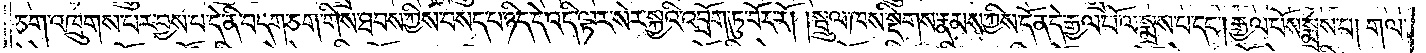ཅག་འཁྲུགས་པར་བྱས་པ་དེ་ནི་བདག་ཅག་གིས་ཐབས་ཀྱིས་བསད་པ་ཉིད་དེ་འདི་ལྟར་སེར་སྐྱའི་འབྲོག་ཏུ་བོར་རོ། །སྦྲུལ་ཁས་སྡིགས་རྣམས་ཀྱིས་དོན་དེ་རྒྱལ་པོ་ལ་སྨྲས་པ་དང༌། རྒྱལ་པོས་སྨྲས་པ། གལ་
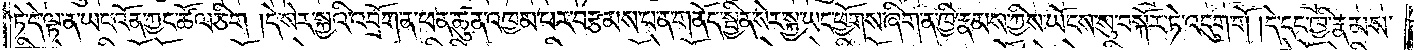ཏེ་དེ་ལྟ་ན་ཡང་འོན་ཀྱང་ཚོལ་ཅིག །དེ་སེར་སྐྱའི་འབྲོག་ན་ཕན་ཚུན་འཁྱམ་པར་བརྩམས་པ་ན་གནོད་སྦྱིན་སེར་སྐྱ་ཡང་ཕྱོགས་ཞིག་ན་ཁྱི་རྣམས་ཀྱིས་ཡོངས་སུ་བསྐོར་ཏེ་འདུག་གོ །དེ་དང་ཁྱི་རྣམས་
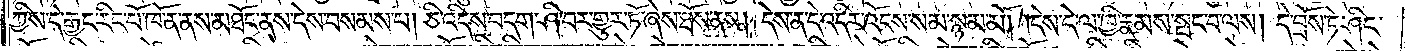ཀྱིས་དེ་རྒྱང་རིང་པོ་ཁོ་ན་ནས་མཐོང་ནས་དེས་བསམས་པ། ཅི་འདིས་བདག་ཤི་བར་གྱུར་ཏོ་ཞེས་ཐོས་ནས། དེས་ན་དེ་འདིར་འོངས་སམ་སྙམ་མོ། །དེས་དེ་ལ་ཁྱི་རྣམས་སྤང་བ་ལས། དེ་བྲོས་ཏེ་ཤིང་
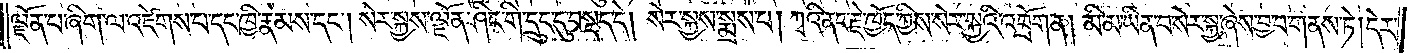ལྗོན་པ་ཞིག་ལ་འཛེགས་པ་དང་ཁྱི་རྣམས་དང༌། སེར་སྐྱས་ལྗོན་ཤིང་གི་དྲུང་དུ་བསྡད་དེ། སེར་སྐྱས་སྨྲས་པ། ཀྭའི་ནང་རྗེ་ཁྱོད་ཀྱིས་སེར་སྐྱའི་འབྲོག་ན། མི་མ་ཡིན་པ་སེར་སྐྱ་ཞེས་བྱ་བ་གནས་ཏེ། དེར་
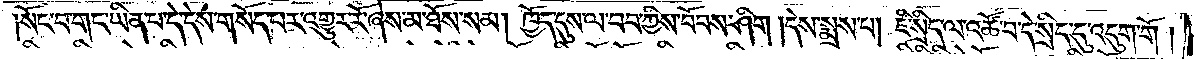སོང་བ་གང་ཡིན་པ་དེ་དེས་གསོད་པར་འགྱུར་རོ་ཞེས་མ་ཐོས་སམ། ཁྱོད་དུས་ལ་བབ་ཀྱིས་བོབས་ཤིག །དེས་སྨྲས་པ། ཇི་སྲིད་ལ་འཚོ་བ་དེ་སྲིད་དུ་འདུག་གོ །
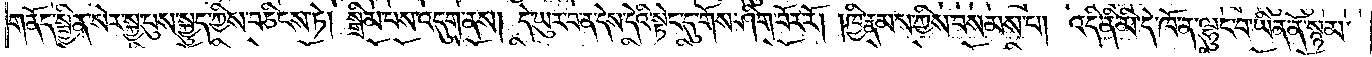གནོད་སྦྱིན་སེར་སྐྱ་པུས་སྐྱུད་ཀྱིས་བཅིངས་ཏེ། སྒྲིམ་པས་འདུག་ནས། དེ་ཡུར་བ་ན་དེས་དེའི་སྟེང་དུ་གོས་ཤིག་བོར་རོ། །ཁྱི་རྣམས་ཀྱིས་བསམས་པ། འདི་ནི་མི་དེ་ཁོ་ན་ལྷུང་བ་ཡིན་ནོ་སྙམ་
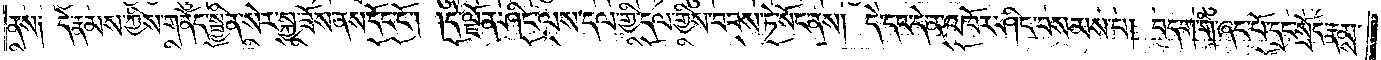ནས༑ དེ་རྣམས་ཀྱིས་གནོད་སྦྱིན་སེར་སྐྱ་ཟོས་ནས་དོང་ངོ༌། །དེ་ལྗོན་ཤིང་ལས་དལ་གྱིས་དལ་གྱིས་བབས་ཏེ་སོང་ནས། དེ་དང་དེ་ན་འཁོར་ཤིང་བསམས་པ། བདག་གི་ཞང་པོ་དྲང་སྲོང་རྣམས་
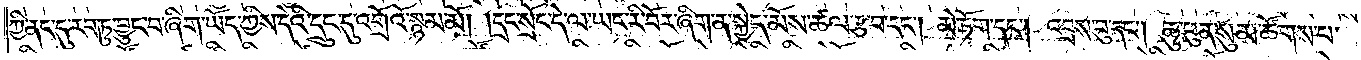ཀྱི་ནང་དུ་རབ་ཏུ་བྱུང་བ་ཞིག་ཡོད་ཀྱིས་དེའི་དྲུང་དུ་འགྲོའོ་སྙམ་མོ། །དྲང་སྲོང་དེ་ལ་ཡང་རི་བོར་ཞིག་ན་སྐྱེད་མོས་ཚལ་རྩ་བ་དང༌། མེ་ཏོག་དང༌། འབྲས་བུ་དང༌། ཆུ་ཕུན་སུམ་ཚོགས་པ་
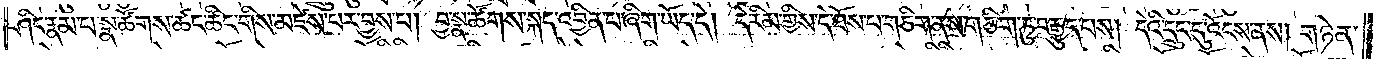ཤིང་རྣམ་པ་སྣ་ཚོགས་ཚང་ཚིང་གིས་མཛེས་པར་བྱས་པ། བྱ་སྣ་ཚོགས་སྐད་འབྱིན་པ་ཞིག་ཡོད་དེ། དེ་རིམ་གྱིས་དེ་ཐོས་པ་གཅིག་ནས་གཅིག་ཏུ་བརྒྱུད་པས། དེའི་དྲུང་དུ་འོངས་ནས། གཉེན་
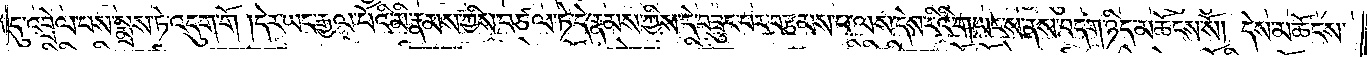དུ་འབྲེལ་པས་སྨྲས་ཏེ་འདུག་གོ །དེར་ཡང་རྒྱལ་པོའི་མི་རྣམས་ཀྱིས་བཙལ་ཏེ་དེ་རྣམས་ཀྱིས་དེ་བཟུང་པར་བརྩམས་པ་ལས་དེས་རིའི་གཡང་ས་ནས་བདག་ཉིད་མཆོངས་སོ། །དེས་མཆོངས་
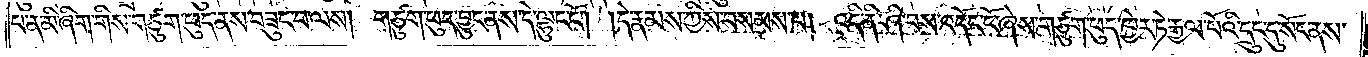པ་ན་མི་ཞིག་གིས་གཙུག་ཕུད་ནས་བཟུང་བ་ལས། གཙུག་ཕུད་བྱུང་ནས་དེ་ལྷུང་ངོ༌། །དེ་རྣམས་ཀྱིས་བསམས་པ། འདི་ནི་ཤི་བས་འདོང་ངོ་ཞེས་གཙུག་ཕུད་ཁྱེར་ཏེ་རྒྱལ་པོའི་དྲུང་དུ་སོང་ནས་
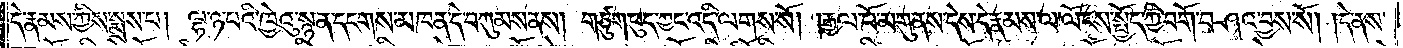དེ་རྣམས་ཀྱིས་སྨྲས་པ། ལྷ་ཉ་པའི་ཁྱེའུ་སྙན་དངགས་མཁན་དེ་བཀུམས་ནས། གཙུག་ཕུད་ཀྱང་འདི་ལགས་སོ། །རྒྱལ་པོ་མགུ་ནས་དེས་དེ་རྣམས་ལ་ལོངས་སྤྱོད་ཀྱི་བགོ་བཤའ་བྱས་སོ། །དེ་ནས་
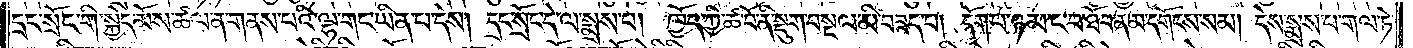དྲང་སྲོང་གི་སྐྱེད་མོས་ཚལ་ན་གནས་པའི་ལྷ་གང་ཡིན་པ་དེས། དྲང་སྲོང་དེ་ལ་སྨྲས་པ། ཁྱོད་ཀྱི་ཚ་བོ་ནི་སྡུག་བསྔལ་མི་བཟད་པ། དོག་པ་ཉམ་ང་བ་ཐོབ་ན་མ་དགོངས་སམ། དེས་སྨྲས་པ་གལ་ཏེ་
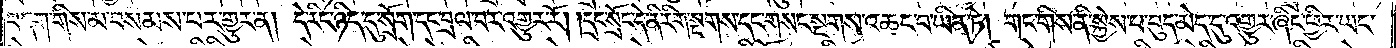བདག་གིས་མ་བསམས་པར་གྱུར་ན། དེ་རིང་ཉིད་དུ་སྲོག་དང་བྲལ་བར་འགྱུར་རོ། །དྲང་སྲོང་དེ་ནི་རིག་སྔགས་དང་གསང་སྔགས་འཆང་བ་ཡིན་ཏེ། གང་གིས་ནི་སྐྱེས་པ་བུད་མེད་དུ་འགྱུར་ཞིང་ཕྱིར་ཡང་
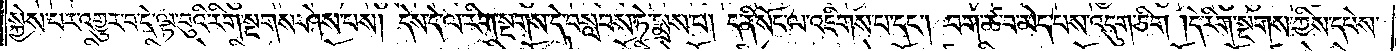སྐྱེས་པར་འགྱུར་བ་དེ་ལྟ་བུའི་རིག་སྔགས་ཤེས་པས། དེས་དེ་ལ་རིག་སྔགས་དེ་བསླབས་ཏེ་སྨྲས་པ། ད་ནི་སོང་ལ་འཇིགས་པ་དང༌། བག་ཚ་བ་མེད་པས་འདུག་ཅིག །དེ་རིག་སྔགས་ཀྱིས་དཔེས་
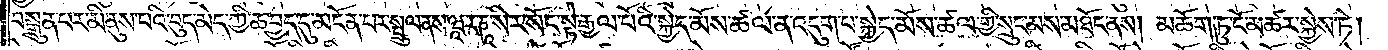བསྐྲུན་པར་མི་ནུས་པའི་བུད་མེད་ཀྱི་ཆ་བྱད་དུ་མངོན་པར་སྤྲུལ་ནས་ཝཱ་ར་ཎཱ་སིར་སོང་སྟེ་རྒྱལ་པོའི་སྐྱེད་མོས་ཚལ་ན་འདུག་པ་སྐྱེད་མོས་ཚལ་གྱི་སྲུང་མས་མཐོང་ནས། མཆོག་ཏུ་ངོ་མཚར་སྐྱེས་ཏེ།
